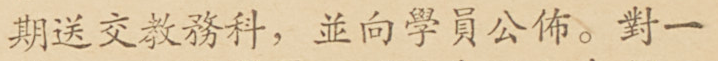期送交教務科，並向學員公佈。對一
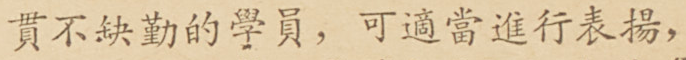貫不缺勤的學員，可適當進行表揚，
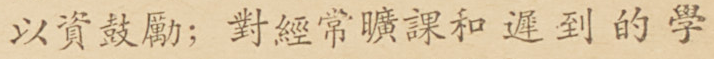以資鼓勵；對經常曠課和遲到的學
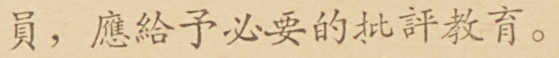員，應給予必要的批評教育。
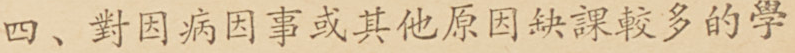四、對因病因事或其他原因缺課較多的學
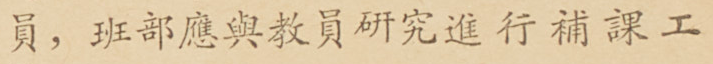員，班部應與教員研究進行補課工
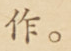作。
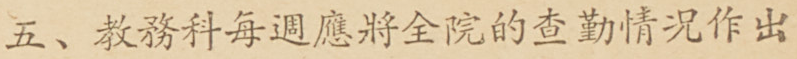五、教務科每週應將全院的查勤情況作出
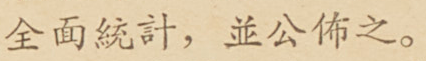全面統計，並公佈之。
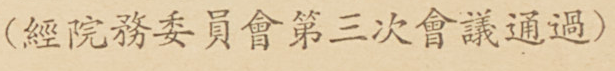（經院務委員會第三次會議通過）
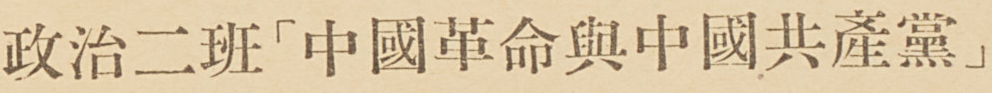政治二班「中國革命與中國共產黨」
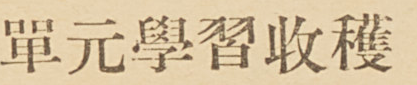單元學習收穫
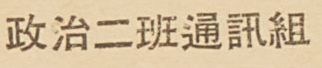政治二班通訊組
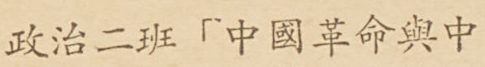政治二班「中國革命與中
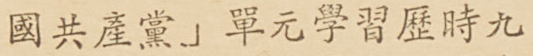國共產黨」單元學習歷時九
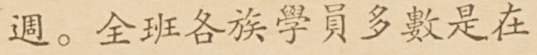週。全班各族學員多數是在
